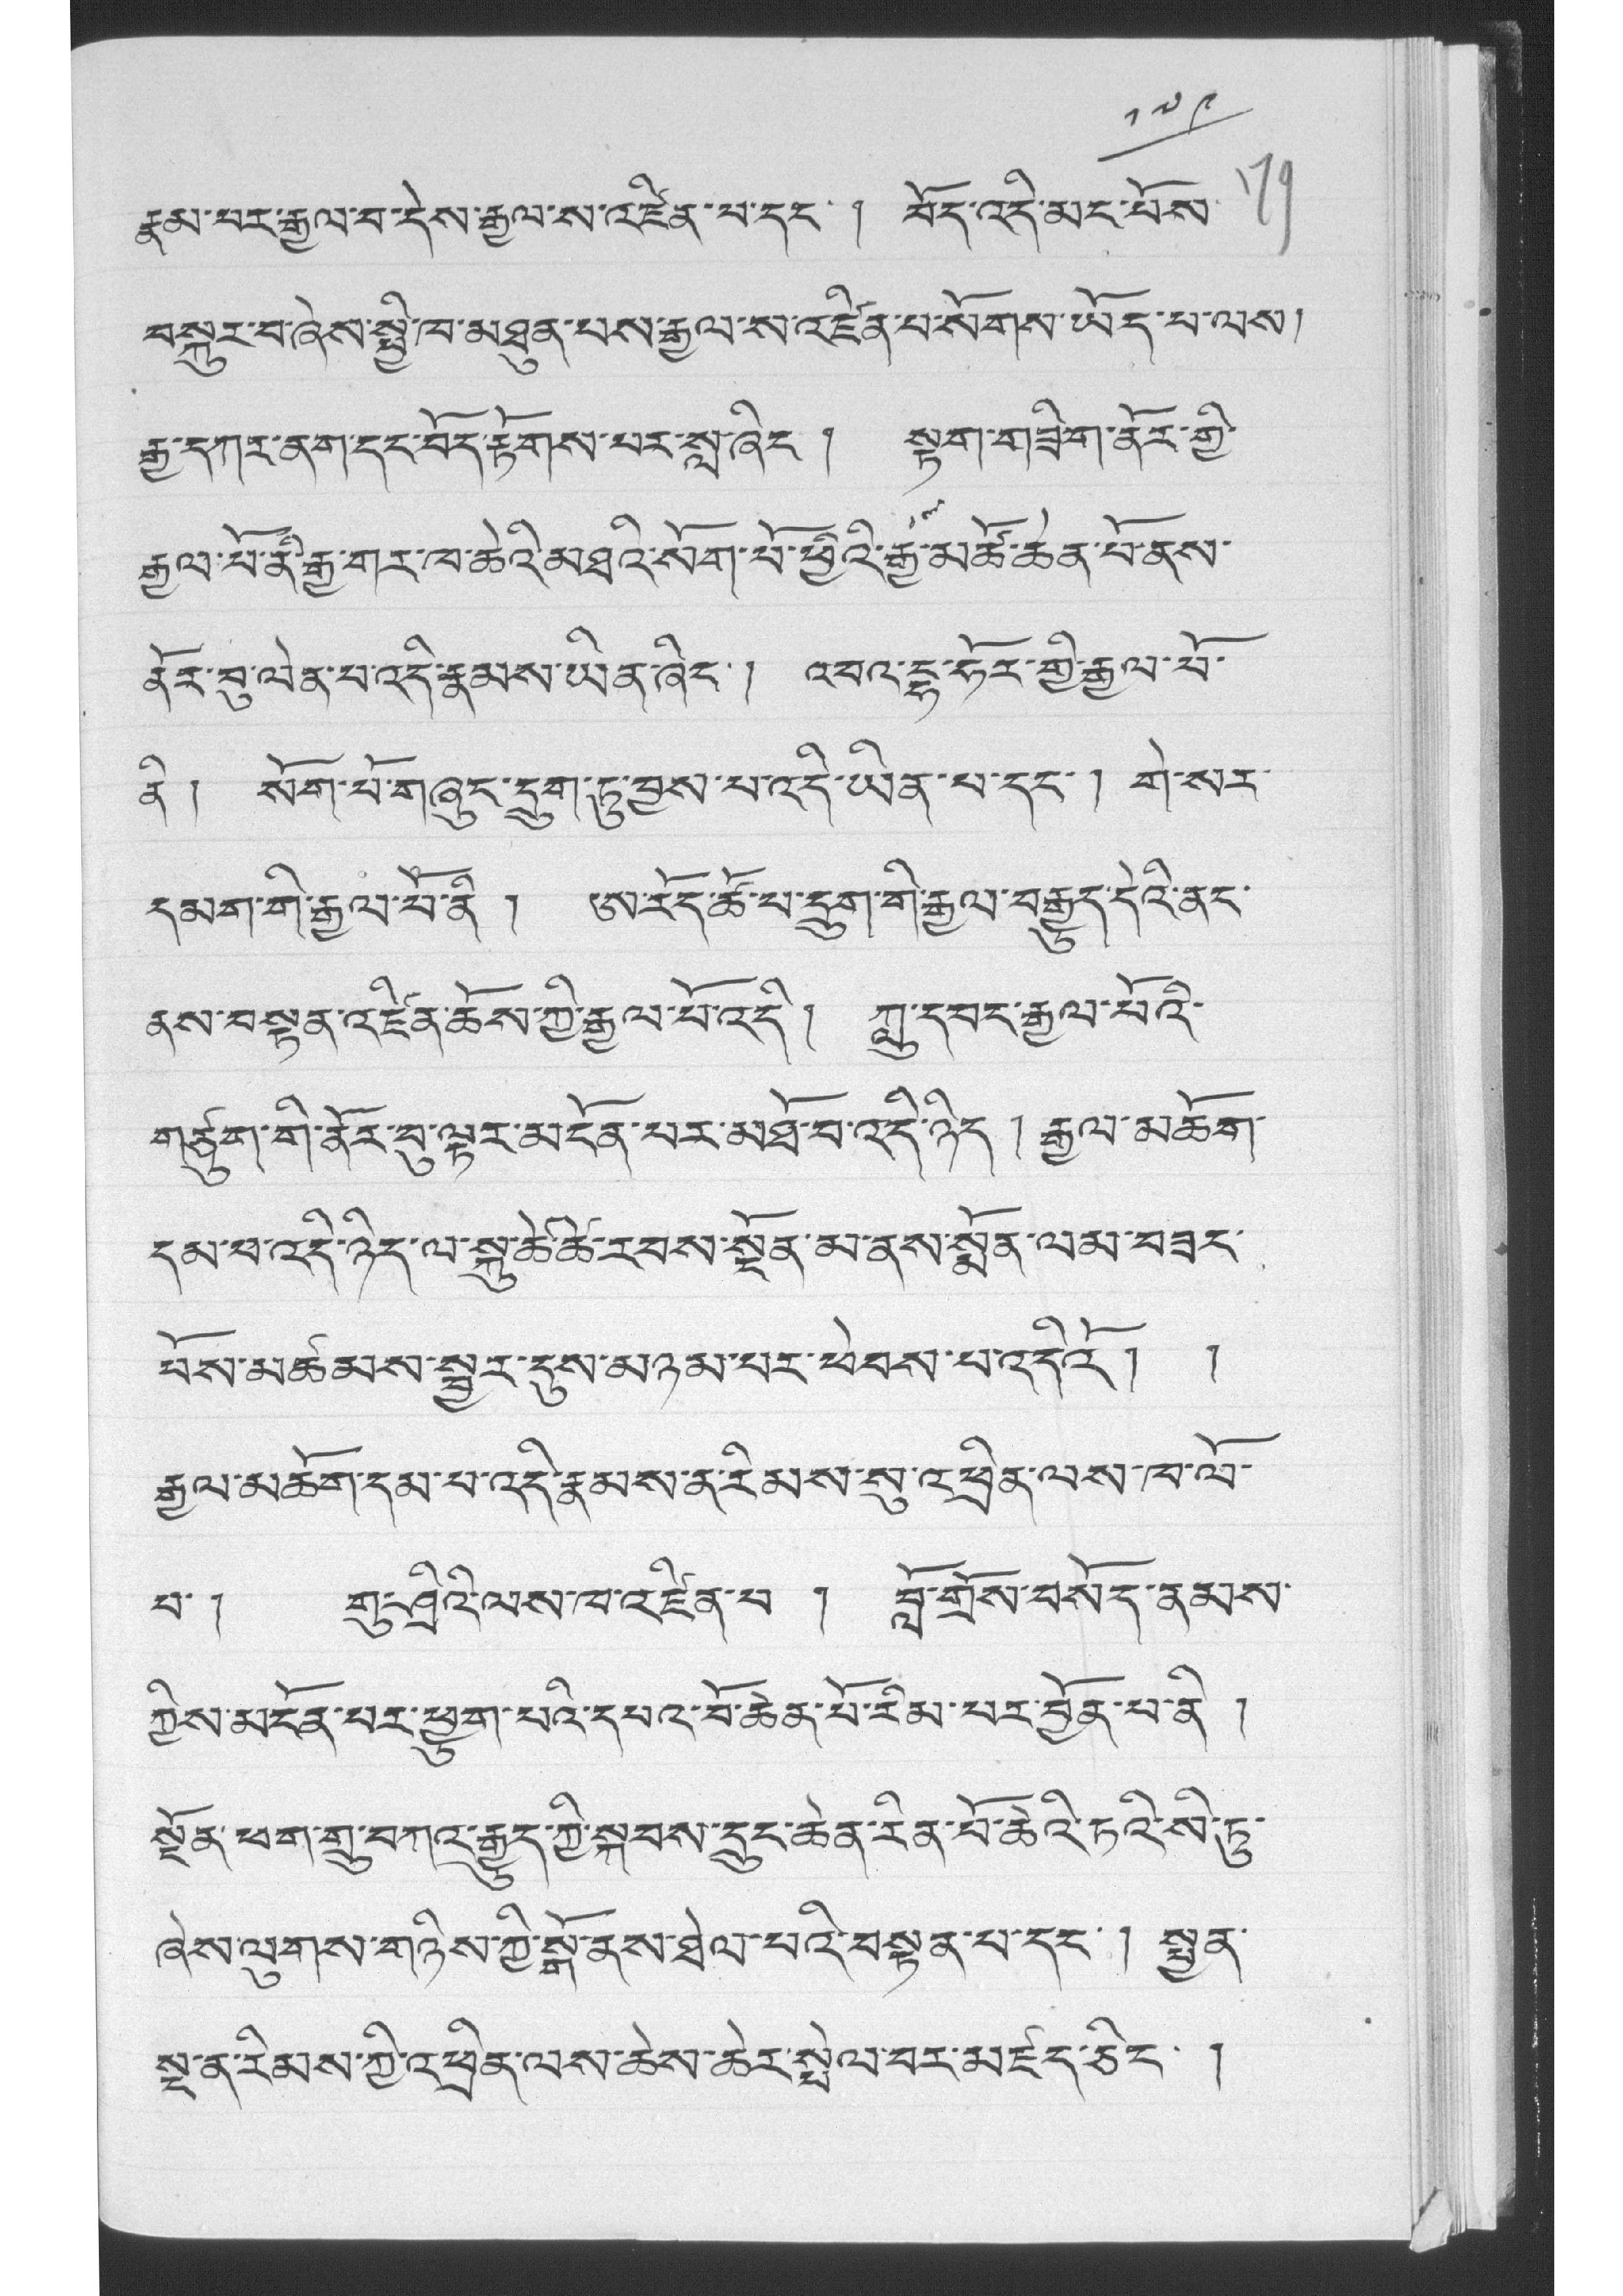༡༧༩
རྣམ་པར་རྒྱལ་བ་དེས་རྒྱལ་ས་འཛིན་པ་དང་ ། བོད་འདི་མང་པོས་
བསྐུར་བ་ཞེས་སྤྱི་ཁ་མཐུན་པས་རྒྱལ་ས་འཛིན་པ་སོགས་ཡོད་པ་ལས།
རྒྱ་དཀར་ནག་དང་བོད་རྟོགས་པར་སླ་ཞིང་། སྟག་གཟིག་ནོར་གྱི་
རྒྱལ་པོ་ནི་རྒྱ་གར་ཁ་ཆེའི་མཐའི་སོག་པོ་ཕྱིའི་རྒྱ་མཚོ་ཆེན་པོ་ནས་
ནོར་བུ་ལེན་པ་འདི་རྣམས་ཡིན་ཞིང་། འབའ་དྷ་ཧོར་གྱི་རྒྱལ་པོ་
ནི ། སོག་པོ་གཞུང་དྲུག་ཏུ་བྱས་པ་འདི་ཡིན་པ་དང་། གེ་སར་
དམག་གི་རྒྱལ་པོ་ནི ། ཨ་རོད་ཚོ་པ་དྲུག་གི་རྒྱལ་བརྒྱུད་དེའི་ནང་
ནས་བསྟན་འཛིན་ཆོས་ཀྱི་རྒྱལ་བོ་འདི། ཀླུ་དབང་རྒྱལ་པོའི་
གཙུག་གི་ནོར་བུ་ལྟར་མངོན་པར་མཐོ་བ་འདི་ཉིད། རྒྱལ་མཆོག་
དམ་པ་འདི་ཉིད་ལ་སྐུ་ཚེ་ཚེ་རབས་སྔོན་མ་ནས་སྨོན་ལམ་བཟང་
པོས་མཚམས་སྦྱར་དུས་མཉམ་པར་ཕེབས་བ་འདིའོ། །
རྒྱལ་མཆོག་དམ་པ་འདི་རྣམས་ན་རིམས་སུ་འཕྲིན་ལས་ཁ་ལོ་
པ་། གུ་ཤྲིའི་ལས་ཁ་འཛིན་པ ། བློ་གྲོས་བསོད་ནམས་
ཀྱིས་མངོན་པར་ཕྱུག་པའི་དཔའ་བོ་ཆེན་པོ་རིམ་པར་བྱོན་པ་ནི །
སྔོན་ཕག་གྲུ་བཀའ་རྒྱུད་ཀྱི་སྐབས་དྲུང་ཆེན་རིན་པོ་ཆེའི་ཏའི་སི་ཏུ་
ཞེས་ལེགས་གཉིས་ཀྱི་སྒོ་ནས་ཐེལ་པའི་བསྟན་པ་དང་ ། སྦྱན་
སྔ་ན་རིམས་ཀྱི་འཕྲིན་ལས་ཆེས་ཆེར་སྤེལ་བར་མཛད་ཅིང་ །
